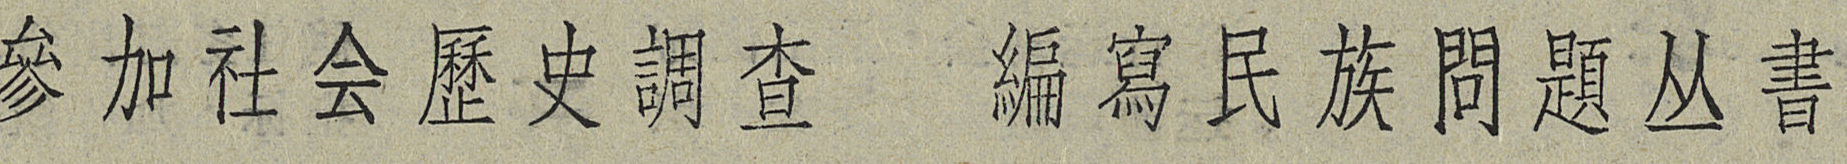參加社會歷史調查 編寫民族問題丛書
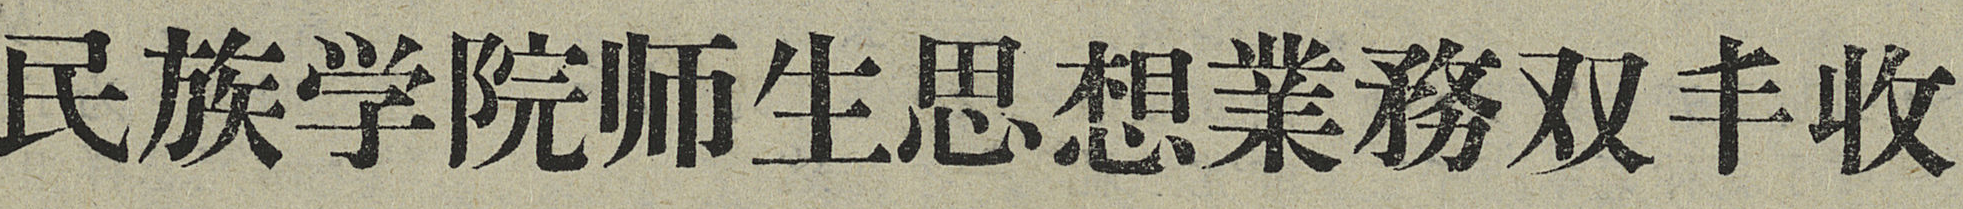民族学院师生思想業務双丰收
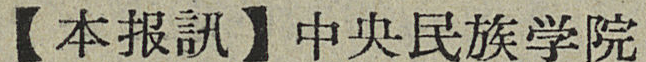【本报訊】中央民族学院
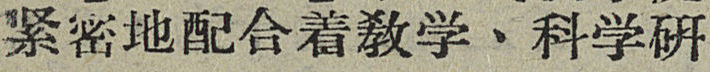紧密地配合着敎学、科学研
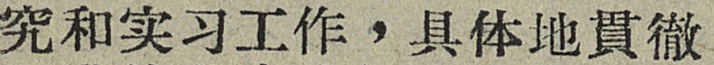究和实习工作，具体地貫徹
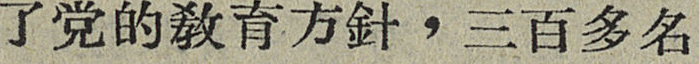了党的敎育方針，三百多名
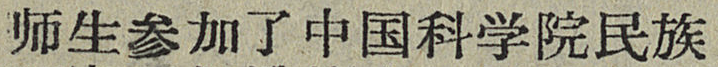师生参加了中国科学院民族
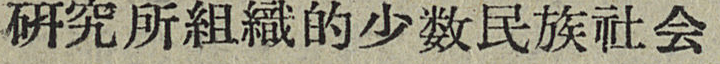研究所組織的少数民族社会
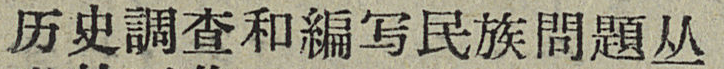历史調查和編写民族問題丛
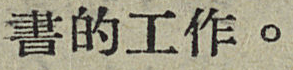書的工作。
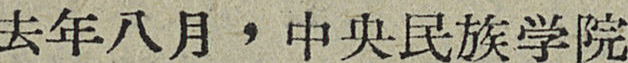去年八月，中央民族学院
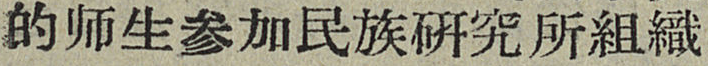的师生参加民族研究所組織
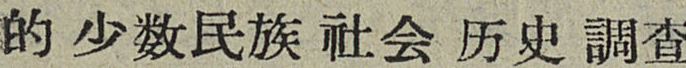的少数民族社会历史調查
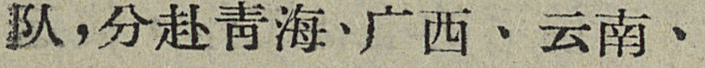队，分赴靑海、广西、云南、
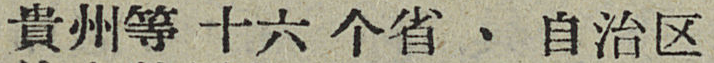貴州等十六个省、自治区
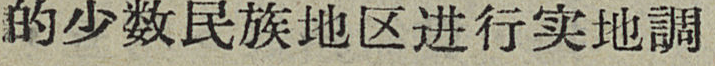的少数民族地区进行实地調
